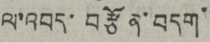ལ་འབད་བརྩོན་བདག་
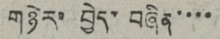གཉེར་བྱེད་བཞིན་་་་
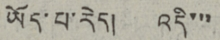ཡོད་པ་རེད། འདི་་་
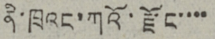ནི་ཁྲའང་ཀའོ་རྫོང་་་་
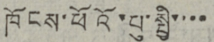ཁོངས་ཕོའོ་པུ་སྤྱི་་་་
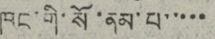ཁང་གི་སོ་ནམ་པ་་་་་
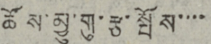ཚོས་མྱུ་གུ་རྩ་སྤོས་་་་
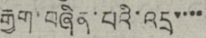རྒྱག་བཞིན་པའི་འདྲ་་་་
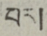པར།
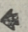🠸
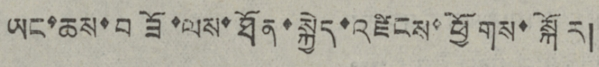ཡང་ཆས་བཟོ་ལས་ཐོན་སྐྱེད་འཛིངས་ཕྱོགས་སྐོར།
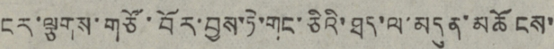ངར་ལྕགས་གཙོ་བོར་བྱས་ཏེ་གང་ཅིའི་ཐད་ལ་མདུན་མཆོངས་
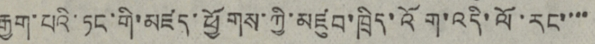རྒྱག་པའི་ཏང་གི་མཛད་ཕྱོགས་ཀྱི་མཛུབ་ཁྲིད་འོག་འདི་ལོ་རང་་་་
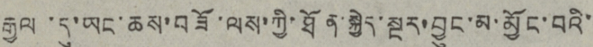རྒྱལ་དུ་ཡང་ཆས་བཟོ་ལས་ཀྱི་ཐོན་སྐྱེད་སྔར་བྱུང་མ་མྱོང་བའི་
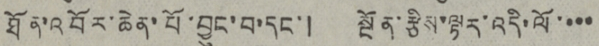ཐོན་འབོར་ཆེན་པོ་བྱུང་བ་དང་། སྔོན་རྩིས་ལྟར་འདི་ལོ་་་་
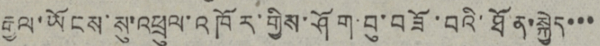རྒྱལ་ཡོངས་སུ་འཕྲུལ་འཁོར་གྱིས་ཤོག་བུ་བཟོ་བའི་ཐོན་སྐྱེད་་་
